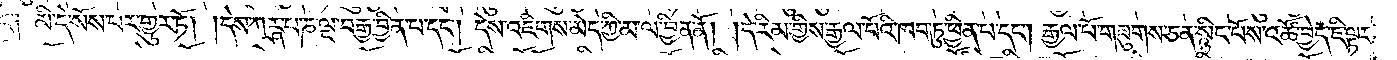དང༌། མི་དེ་སོས་པར་གྱུར་ཏོ། །དེས་ཀརྴ་པ་ཎ་ལྔ་བརྒྱ་བྱིན་པ་དང༌། དེས་འཇིགས་མེད་ཀྱི་མ་ལ་བྱིན་ནོ། །དེ་རིམ་གྱིས་རྒྱལ་པོའི་ཁབ་ཏུ་ཕྱིན་པ་དང༌། རྒྱལ་པོ་གཟུགས་ཅན་སྙིང་པོས་འཚོ་བྱེད་ཇི་ལྟར་
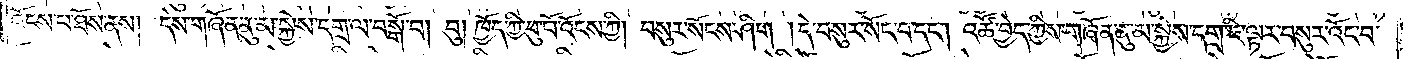འོངས་པ་ཐོས་ནས། དེས་གཞོན་ནུ་མ་སྐྱེས་དགྲ་ལ་བསྒོ་བ། བུ། ཁྱོད་ཀྱི་ཕུ་བོ་འོངས་ཀྱི། བསུར་སོང་ཤིག །དེ་བསུར་སོང་བ་དང༌། འཚོ་བྱེད་ཀྱིས་གཞོན་ནུ་མ་སྐྱེས་དགྲ་ཇི་ལྟར་བསུར་འོང་བ་
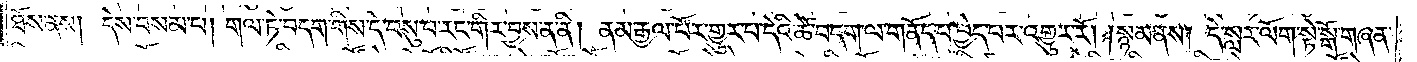ཐོས་ནས། དེས་བསམ་པ། གལ་ཏེ་བདག་གིས་དེ་བསུ་བ་རང་གིར་བྱས་ན་ནི། ནམ་རྒྱལ་པོར་གྱུར་པ་དེའི་ཚེ་བདག་ལ་གནོད་པ་བྱེད་པར་འགྱུར་རོ། །སྙམ་ནས། དེ་སླར་ལོག་སྟེ་སྒོ་གཞན་
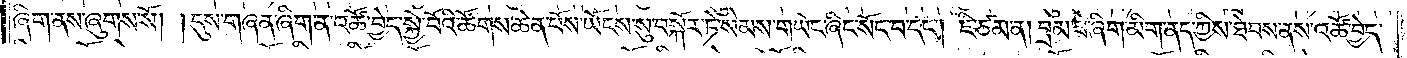ཞིག་ནས་ཞུགས་སོ། །དུས་གཞན་ཞིག་ན་འཚོ་བྱེད་སྐྱེ་བོའི་ཚོགས་ཆེན་པོས་ཡོངས་སུ་བསྐོར་ཏེ་སེམས་གཡང་ཞིང་སོང་བ་དང༌། ཇི་ཙམ་ན། བྲམ་ཟེ་ཞིག་མིག་ནད་ཀྱིས་ཐེབས་ནས་འཚོ་བྱེད་
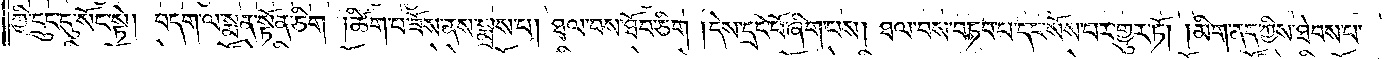ཀྱི་དྲུང་དུ་སོང་སྟེ། བདག་ལ་སྨན་སྟོན་ཅིག །ཚིག་པ་ཟོས་ནས་སྨྲས་པ། ཐལ་བས་ཐོབ་ཅིག །དེས་དྲང་པོ་ཞོག་པས། ཐལ་བས་བཏབ་པ་དང་སོས་པར་གྱུར་ཏོ། །མིག་ནད་ཀྱིས་ཐེབས་པ་
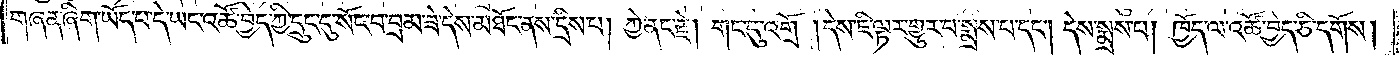གཞན་ཞིག་ཡོད་པ་དེ་ཡང་འཚོ་བྱེད་ཀྱི་དྲུང་དུ་སོང་བ་བྲམ་ཟེ་དེས་མཐོང་ནས་དྲིས་པ། ཀྱེ་ནང་རྗེ། གང་དུ་འགྲོ་།དེས་ཇི་ལྟར་གྱུར་པ་སྨྲས་པ་དང༌། དེས་སྨྲས་པ། ཁྱོད་ལ་འཚོ་བྱེད་ཅི་དགོས།
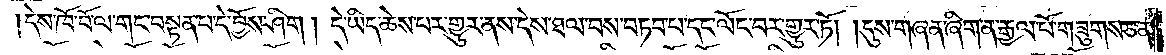།དེས་ཁོ་བོ་ལ་གང་བསྟན་པ་དེ་བྱོས་ཤིག །དེ་ཡིད་ཆེས་པར་གྱུར་ནས་དེས་ཐལ་བས་བཏབ་པ་དང་ལོང་བར་གྱུར་ཏོ། །དུས་གཞན་ཞིག་ན་རྒྱལ་པོ་གཟུགས་ཅན་
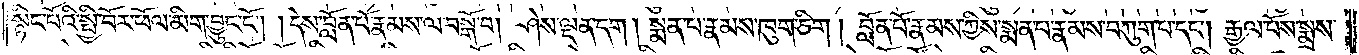སྙིང་པོའི་སྤྱི་བོར་ཕོལ་མིག་བྱུང་ངོ༌། །དེས་བློན་པོ་རྣམས་ལ་བསྒོ་བ། ཤེས་ལྡན་དག །སྨན་པ་རྣམས་ཁུག་ཅིག །བློན་པོ་རྣམས་ཀྱིས་སྨན་པ་རྣམས་བཀུག་པ་དང༌། རྒྱལ་པོས་སྨྲས་
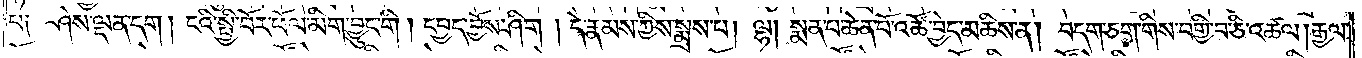པ༑ ཤེས་ལྡན་དག །ངའི་སྤྱི་བོར་ཕོལ་མིག་བྱུང་གི །དཔྱད་བྱོས་ཤིག །དེ་རྣམས་ཀྱིས་སྨྲས་པ། ལྷ། སྨན་པ་ཆེན་པོ་འཚོ་བྱེད་མཆིས་ན། བདག་ཅག་གིས་བགྱི་བ་ཅི་འཚལ། རྒྱལ་
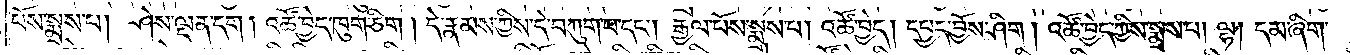པོས་སྨྲས་པ། ཤེས་ལྡན་དག །འཚོ་བྱེད་ཁུག་ཅིག །དེ་རྣམས་ཀྱིས་དེ་བཀུག་པ་དང༌། རྒྱལ་པོས་སྨྲས་པ། འཚོ་བྱེད། དཔྱད་བྱོས་ཤིག །འཚོ་བྱེད་ཀྱིས་སྨྲས་པ། ལྷ། དམ་ཞིག་
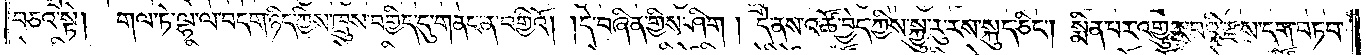བཅའ་སྟེ། གལ་ཏེ་ལྷ་ལ་བདག་ཉིད་ཀྱིས་ཁྲུས་བགྱིད་དུ་གནང་ན་བགྱིའོ། །དེ་བཞིན་གྱིས་ཤིག །དེ་ནས་འཚོ་བྱེད་ཀྱིས་སྐྱུ་རུ་རས་སྐུད་ཅིང༌། སྨིན་པར་འགྱུར་བའི་རྫས་དག་བཏབ་
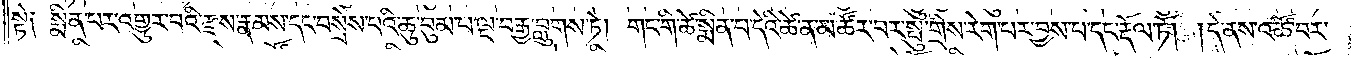སྟེ༑ སྨིན་པར་འགྱུར་བའི་རྫས་རྣམས་དང་བསྲེས་པའི་ཆུ་བུམ་པ་ལྔ་བརྒྱ་བླུགས་ཏེ། གང་གི་ཚེ་སྨིན་པ་དེའི་ཚེ་ན་མ་ཚོར་བར་སྤུ་གྲིས་རེག་པར་བྱས་པ་དང་རྡོལ་ཏོ། །དེ་ནས་འཚོ་བར་
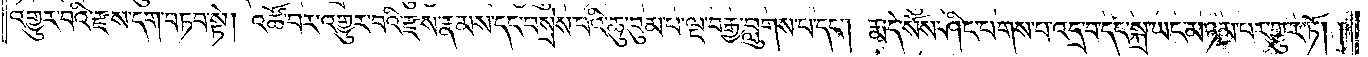འགྱུར་བའི་རྫས་དག་བཏབ་སྟེ། འཚོ་བར་འགྱུར་བའི་རྫས་རྣམས་དང་བསྲེས་པའི་ཆུ་བུམ་པ་ལྔ་བརྒྱ་བླུགས་པ་དང༌། རྨ་དེ་སོས་ཤིང་པགས་པ་འདྲ་བ་དང་སྐྲ་ཡང་མཉམ་པར་གྱུར་ཏོ། །
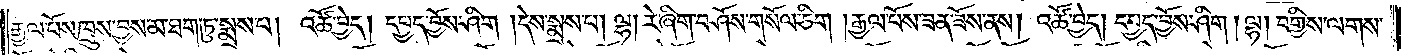རྒྱལ་པོས་ཁྲུས་བྱས་མ་ཐག་ཏུ་སྨྲས་པ། འཚོ་བྱེད། དཔྱད་བྱོས་ཤིག །དེས་སྨྲས་པ། ལྷ། རེ་ཞིག་བཤོས་གསོལ་ཅིག །རྒྱལ་པོས་ཟན་ཟོས་ནས། འཚོ་བྱེད། དཔྱད་བྱོས་ཤིག །ལྷ། བགྱིས་ལགས་
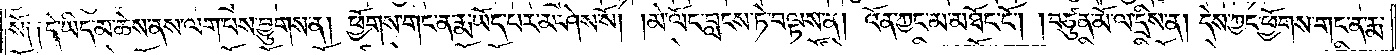སོ༑ ༑དེ་ཡིད་མ་ཆེས་ནས་ལག་པས་བྱུགས་ན། ཕྱོགས་གང་ན་རྨ་ཡོད་པར་མ་ཤེས་སོ། །མེ་ལོང་བླངས་ཏེ་བལྟས་ན། འོན་ཀྱང་མ་མཐོང་ངོ༌། །བཙུན་མོ་ལ་དྲིས་ན། དེས་ཀྱང་ཕྱོགས་གང་ན་རྨ་
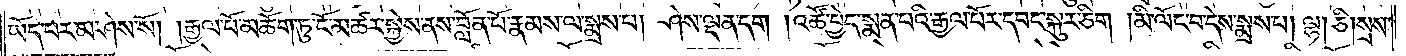ཡོད་པར་མ་ཤེས་སོ། །རྒྱལ་པོ་མཆོག་ཏུ་ངོ་མཚར་སྐྱེས་ནས་བློན་པོ་རྣམས་ལ་སྨྲས་པ། ཤེས་ལྡན་དག །འཚོ་བྱེད་སྨན་པའི་རྒྱལ་པོར་དབང་སྐུར་ཅིག །མི་ལོང་བ་དེས་སྨྲས་པ། ལྷ། ཅི། སྲས་
